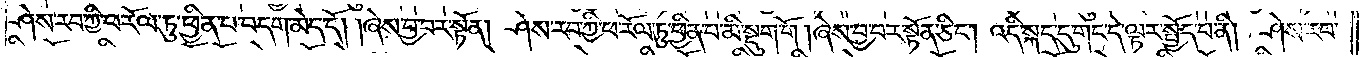ཤེས་རབ་ཀྱི་ཕ་རོལ་ཏུ་ཕྱིན་པ་བདག་མེད་དོ། །ཞེས་བྱ་བར་སྟོན། ཤེས་རབ་ཀྱི་ཕ་རོལ་ཏུ་ཕྱིན་པ་མི་སྡུག་གོ། ཞེས་བྱ་བར་སྟོན་ཅིང༌། འདི་སྐད་དུ་གང་དེ་ལྟར་སྤྱོད་པ་ནི། ཤེས་རབ་
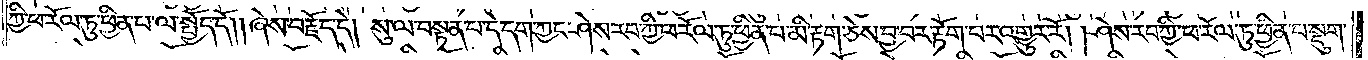ཀྱི་ཕ་རོལ་ཏུ་ཕྱིན་པ་ལ་སྤྱོད་དོ། །ཞེས་བརྗོད་དེ། སུ་ལ་བསྟན་པ་དེ་དག་ཀྱང་ཤེས་རབ་ཀྱི་ཕ་རོལ་ཏུ་ཕྱིན་པ་མི་རྟག་ཅེས་བྱ་བར་རྟོག་པར་འགྱུར་རོ། །ཤེས་རབ་ཀྱི་ཕ་རོལ་ཏུ་ཕྱིན་པ་སྡུག་
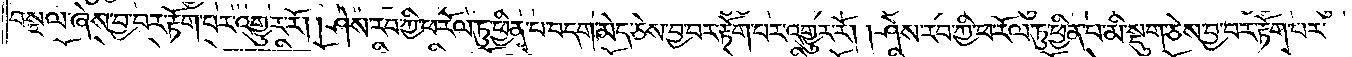བསྔལ་ཞེས་བྱ་བར་རྟོག་པར་འགྱུར་རོ། །ཤེས་རབ་ཀྱི་ཕ་རོལ་ཏུ་ཕྱིན་པ་བདག་མེད་ཅེས་བྱ་བར་རྟོག་པར་འགྱུར་རོ། །ཤེས་རབ་ཀྱི་ཕ་རོལ་ཏུ་ཕྱིན་པ་མི་སྡུག་ཅེས་བྱ་བར་རྟོག་པར་
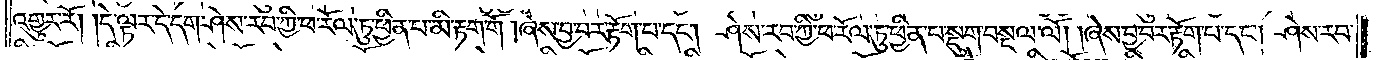འགྱུར་རོ། །དེ་ལྟར་དེ་དག་ཤེས་རབ་ཀྱི་ཕ་རོལ་ཏུ་ཕྱིན་པ་མི་རྟག་གོ། ཞེས་བྱ་བར་རྟོག་པ་དང༌། ཤེས་རབ་ཀྱི་ཕ་རོལ་ཏུ་ཕྱིན་པ་སྡུག་བསྔལ་ལོ། །ཞེས་བྱ་བར་རྟོག་པ་དང༌། ཤེས་རབ་
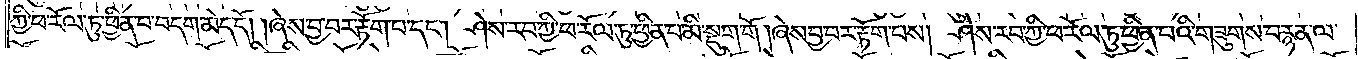ཀྱི་ཕ་རོལ་ཏུ་ཕྱིན་པ་བདག་མེད་དོ། །ཞེས་བྱ་བར་རྟོག་པ་དང༌། ཤེས་རབ་ཀྱི་ཕ་རོལ་ཏུ་ཕྱིན་པ་མི་སྡུག་གོ། ཞེས་བྱ་བར་རྟོག་པས། ཤེས་རབ་ཀྱི་ཕ་རོལ་ཏུ་ཕྱིན་པའི་གཟུགས་བརྙན་ལ་
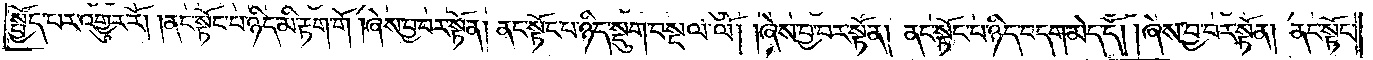སྤྱོད་པར་འགྱུར་རོ། །ནང་སྟོང་པ་ཉིད་མི་རྟག་གོ། ཞེས་བྱ་བར་སྟོན། ནང་སྟོང་པ་ཉིད་སྡུག་བསྔལ་ལོ། །ཞེས་བྱ་བར་སྟོན། ནང་སྟོང་པ་ཉིད་བདག་མེད་དོ། །ཞེས་བྱ་བར་སྟོན། ནང་སྟོང་
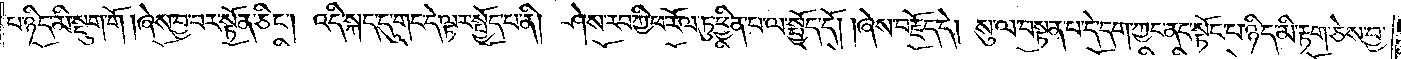པ་ཉིད་མི་སྡུག་གོ། ཞེས་བྱ་བར་སྟོན་ཅིང༌། འདི་སྐད་དུ་གང་དེ་ལྟར་སྤྱོད་པ་ནི། ཤེས་རབ་ཀྱི་ཕ་རོལ་ཏུ་ཕྱིན་པ་ལ་སྤྱོད་དོ། །ཞེས་བརྗོད་དེ། སུ་ལ་བསྟན་པ་དེ་དག་ཀྱང་ནང་སྟོང་པ་ཉིད་མི་རྟག་ཅེས་བྱ་
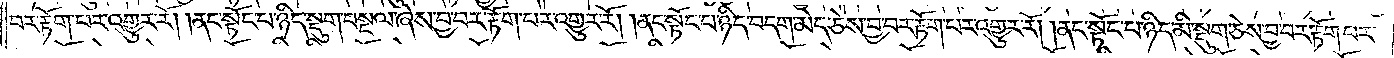བར་རྟོག་པར་འགྱུར་རོ། །ནང་སྟོང་པ་ཉིད་སྡུག་བསྔལ་ཞེས་བྱ་བར་རྟོག་པར་འགྱུར་རོ། །ནང་སྟོང་པ་ཉིད་བདག་མེད་ཅེས་བྱ་བར་རྟོག་པར་འགྱུར་རོ། །ནང་སྟོང་པ་ཉིད་མི་སྡུག་ཅེས་བྱ་བར་རྟོག་པར་
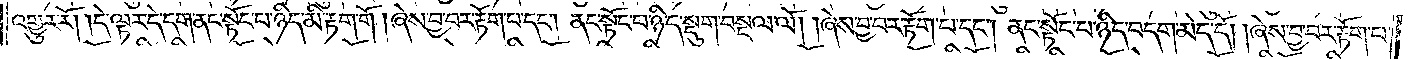འགྱུར་རོ། །དེ་ལྟར་དེ་དག་ནང་སྟོང་པ་ཉིད་མི་རྟག་གོ། ཞེས་བྱ་བར་རྟོག་པ་དང༌། ནང་སྟོང་པ་ཉིད་སྡུག་བསྔལ་ལོ། །ཞེས་བྱ་བར་རྟོག་པ་དང༌། ནང་སྟོང་པ་ཉིད་བདག་མེད་དོ། །ཞེས་བྱ་བར་རྟོག་པ་
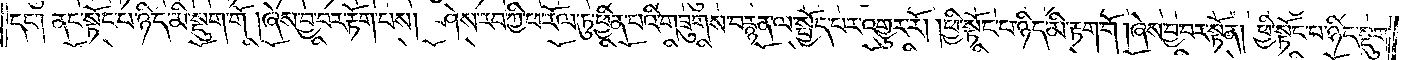དང༌། ནང་སྟོང་པ་ཉིད་མི་སྡུག་གོ། ཞེས་བྱ་བར་རྟོག་པས། ཤེས་རབ་ཀྱི་ཕ་རོལ་ཏུ་ཕྱིན་པའི་གཟུགས་བརྙན་ལ་སྤྱོད་པར་འགྱུར་རོ། །ཕྱི་སྟོང་པ་ཉིད་མི་རྟག་གོ། ཞེས་བྱ་བར་སྟོན། ཕྱི་སྟོང་པ་ཉིད་སྡུག་
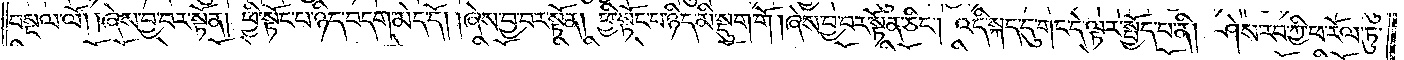བསྔལ་ལོ། །ཞེས་བྱ་བར་སྟོན། ཕྱི་སྟོང་པ་ཉིད་བདག་མེད་དོ། །ཞེས་བྱ་བར་སྟོན། ཕྱི་སྟོང་པ་ཉིད་མི་སྡུག་གོ། ཞེས་བྱ་བར་སྟོན་ཅིང༌། འདི་སྐད་དུ་གང་དེ་ལྟར་སྤྱོད་པ་ནི། ཤེས་རབ་ཀྱི་ཕ་རོལ་ཏུ་
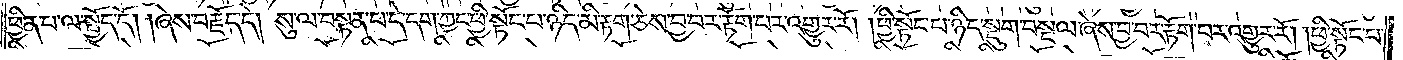ཕྱིན་པ་ལ་སྤྱོད་དོ། །ཞེས་བརྗོད་དེ། སུ་ལ་བསྟན་པ་དེ་དག་ཀྱང་ཕྱི་སྟོང་པ་ཉིད་མི་རྟག་ཅེས་བྱ་བར་རྟོག་པར་འགྱུར་རོ། ཕྱི་སྟོང་པ་ཉིད་སྡུག་བསྔལ་ཞེས་བྱ་བར་རྟོག་པར་འགྱུར་རོ། །ཕྱི་སྟོང་པ་
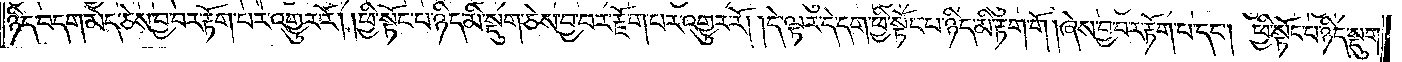ཉིད་བདག་མེད་ཅེས་བྱ་བར་རྟོག་པར་འགྱུར་རོ། །ཕྱི་སྟོང་པ་ཉིད་མི་སྡུག་ཅེས་བྱ་བར་རྟོག་པར་འགྱུར་རོ། དེ་ལྟར་དེ་དག་ཕྱི་སྟོང་པ་ཉིད་མི་རྟག་གོ། ཞེས་བྱ་བར་རྟོག་པ་དང༌། ཕྱི་སྟོང་པ་ཉིད་སྡུག་
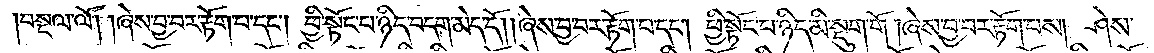བསྔལ་ལོ། །ཞེས་བྱ་བར་རྟོག་པ་དང༌། ཕྱི་སྟོང་པ་ཉིད་བདག་མེད་དོ། །ཞེས་བྱ་བར་རྟོག་པ་དང༌། ཕྱི་སྟོང་པ་ཉིད་མི་སྡུག་གོ། ཞེས་བྱ་བར་རྟོག་པས། ཤེས་
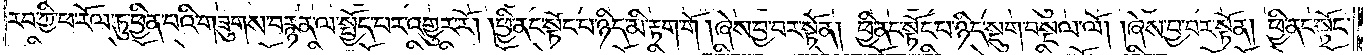རབ་ཀྱི་ཕ་རོལ་ཏུ་ཕྱིན་པའི་གཟུགས་བརྙན་ལ་སྤྱོད་པར་འགྱུར་རོ། །ཕྱི་ནང་སྟོང་པ་ཉིད་མི་རྟག་གོ། ཞེས་བྱ་བར་སྟོན། ཕྱི་ནང་སྟོང་པ་ཉིད་སྡུག་བསྔལ་ལོ། །ཞེས་བྱ་བར་སྟོན། ཕྱི་ནང་སྟོང་
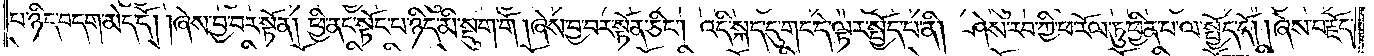པ་ཉིད་བདག་མེད་དོ། །ཞེས་བྱ་བར་སྟོན། ཕྱི་ནང་སྟོང་པ་ཉིད་མི་སྡུག་གོ། ཞེས་བྱ་བར་སྟོན་ཅིང༌། འདི་སྐད་དུ་གང་དེ་ལྟར་སྤྱོད་པ་ནི། ཤེས་རབ་ཀྱི་ཕ་རོལ་ཏུ་ཕྱིན་པ་ལ་སྤྱོད་དོ། །ཞེས་བརྗོད་
